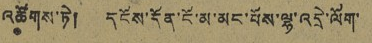འཚོགས་ཏེ། དངོས་དོན་ངོ་མ་མང་པོས་ལྷ་འདྲེ་ལོག་
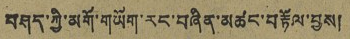བཤད་ཀྱི་མགོ་གཡོག་རང་བཞིན་མཚང་བརྟོལ་བྱས།
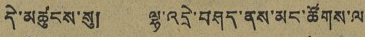དེ་མཚུངས་སུ། ལྷ་འདྲེ་བཤད་ནས་མང་ཚོགས་ལ
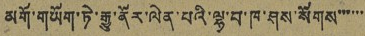མགོ་གཡོག་ཏེ་རྒྱུ་ནོར་ལེན་པའི་ལྷ་བ་ཁ་ཤས་སོགས་་་་་་
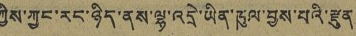ཀྱིས་ཀྱང་རང་ཉིད་ནས་ལྷ་འདྲེ་ཡིན་ཁུལ་བྱས་པའི་རྫུན
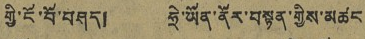གྱི་ངོ་བོ་བཤད། ཧྲེ་ཡོན་ནོར་བསྟན་གྱིས་མཚང
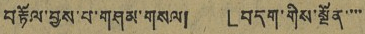བརྟོལ་བྱས་པ་གཤམ་གསལ། 「བདག་གིས་སྔོན་་་་
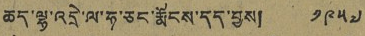ཆད་ལྷ་འདྲེ་ལ་ཧ་ཅང་རྨོངས་དད་བྱས། ༡༩༤༧
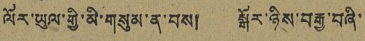ལོར་ཡུལ་གྱི་མི་གསུམ་ན་བས། སྒོར་ཉིས་བརྒྱ་བཞི་
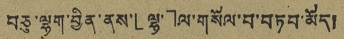བཅུ་ལྷག་བྱིན་ནས་「ལྷ་」ལ་གསོལ་བ་བཏབ་མོད།
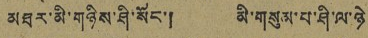མཐར་མི་གཉིས་ཤི་སོང་། མི་གསུམ་པ་ཤི་ལ་ཉེ
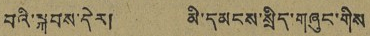པའི་སྐབས་དེར། མི་དམངས་སྲིད་གཞུང་གིས
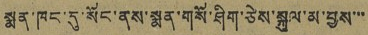སྨན་ཁང་དུ་སོང་ནས་སྨན་གསོ་ཤིག་ཅེས་སྐུལ་མ་བྱས་་་
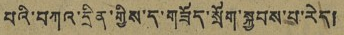པའི་བཀའ་དྲིན་གྱིས་ད་གཟོད་སྲོག་སྐྱབས་བ་རེད།
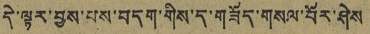དེ་ལྷར་བྱས་པས་བདག་གིས་ད་གཟོད་གསལ་བོར་ཤེས
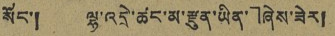སོང་། ལྷ་འདྲེ་ཚང་མ་རྩུན་ཡིན་」ཞེས་ཟེར།
